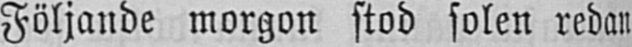Följande morgon stod solen redan
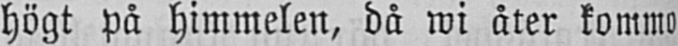högt på himmelen, då wi åter kommo
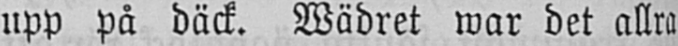upp på däck. Wädret war det allra
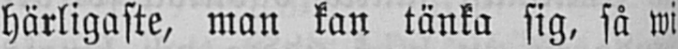härligaste, man kan tänka sig, så wi
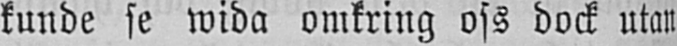kunde se wida omkring oss dock utan
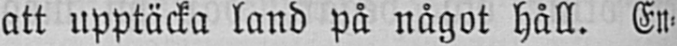att upptäcka land på något håll. En-
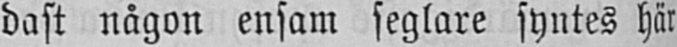dast någon ensam seglare syntes här
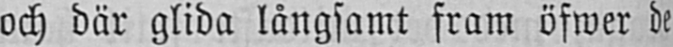och där glida långsamt fram öfwer de
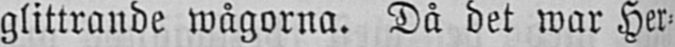glittrande wågorna. Då det war Her-
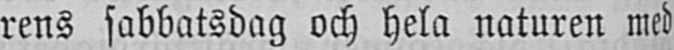rens sabbatsdag och hela naturen med
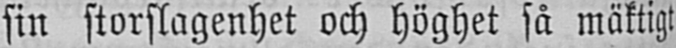sin storslagenhet och höghet så mäktigt
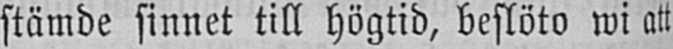stämde sinnet till högtid, beslöto wi att
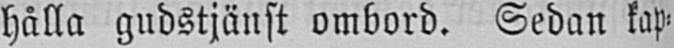hålla gudstjänst ombord. Sedan kap-
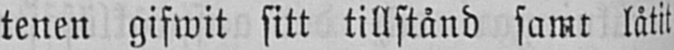tenen gifwit sitt tillstånd samt låtit
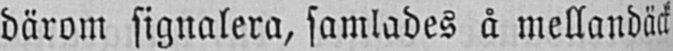därom signalera, samlades å mellandäck
